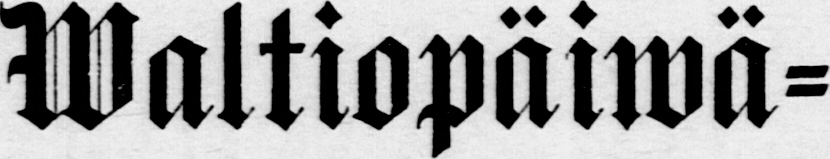Waltiopäiwä-
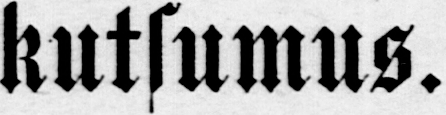kutsumus.
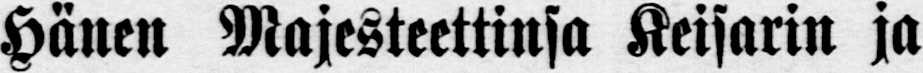Hänen Majesteettinsa Keisarin ja
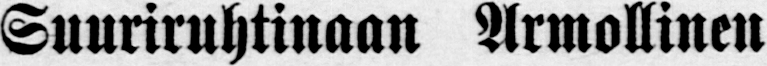Suuriruhtinaan Armollinen
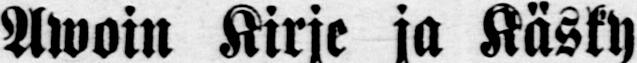Awoin Kirje ja Käsky
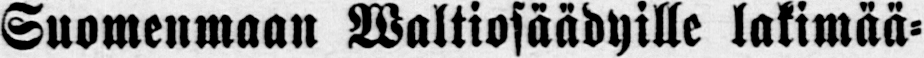Suomenmaan Waltiosaädyille lakimää-
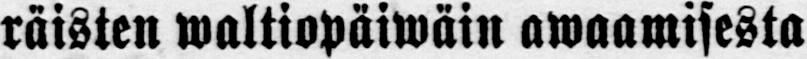räisten waltiopaiwäin awaamisesta
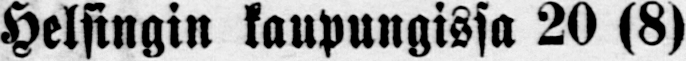Helsingin kaupungissa 20 (8)
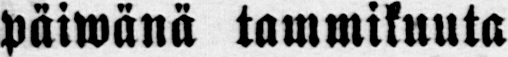päiwänä tammikuuta
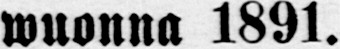wuonna 1891.
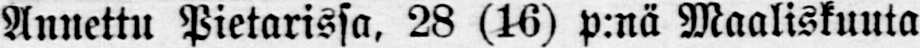Annettu Pietarissa, 28 (16) p.nä Maaliskuuta
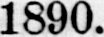1890.
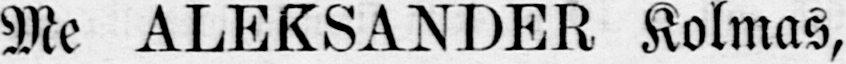Me ALEKSANDER Kolmas,
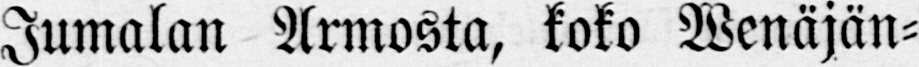Jumalan Armosta, koko Wenäjän-
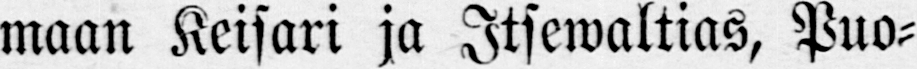maan Keisari ja Itsewaltias, Puo-
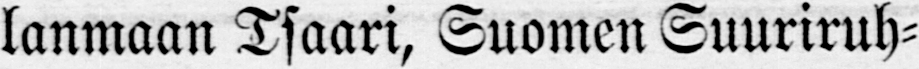laamaan Tsaari, Suomen Suuriruh-
